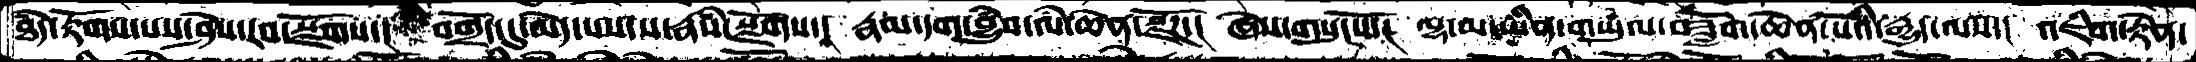ཐཾད་རྟོགས་པས་ཤེས་རབ་སྫོགས་། བགྲོད་དུ་མེད་པས་ས་རྣཾས་སྫོགས་། རྣམ་དག་བྱུཾབ་ལཾ་ཆེན་སྫོཌ་། ཞེས་གསུངསོ་། ལྷ་མ་ཡིན་གཡུལ་བཟློག་ཆེན་པོའི་རྒྱུད་ལས་། འཇིག་རྟེན་
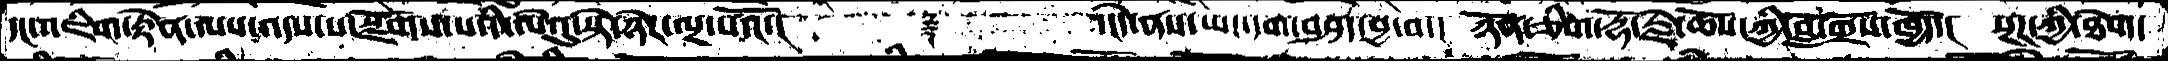དང་འཇིག་རྟེན་ལས་འདས་པ་སྫོགས་པའི་ལེའུ་སྟེ་ཉེར་ལྔ་པའོ་།     ༈   ་།དེ་ནས་ཡང་དག་བཤད་བྱ་བ་། ཉོན་ཅིག་རྡོ་རྗེ་ཆོས་ཀྱི་བློ་གྲོས་ཁྱོད་། སྔཌ་ཀྱི་ཐེག་
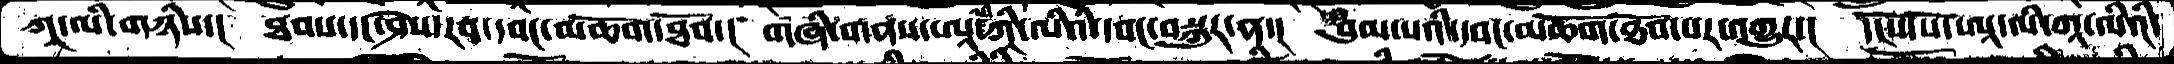ཀཱ་ལི་གཉིས་། ཐབས་དང་ཤེས་རབ་དབང་མཆོག་ཐོབ་། གཞི་གནས་ཨཱ་ལི་ཀཱི་ལིའི་དབང་བསྐུར་ན་། བུམ་པའི་དབང་མཆོག་ཐོབ་པར་འགྱུར་། དངོས་པོ་ཨཱ་ལི་ཀཱ་ལིའི་
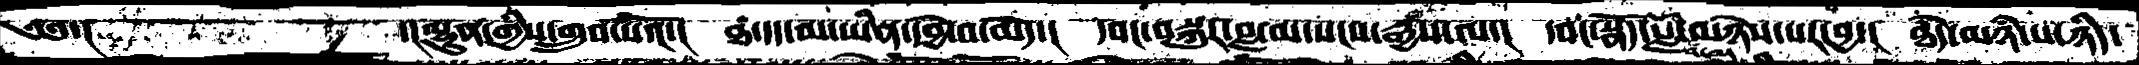༄༅་།          ་།ལྷུན་གྱིས་གྲུབ་པའོ་། ཐ་དད་མ་ཡིན་དབྱེ་བ་མེད་། དབང་བསྐུར་བླ་མ་སངས་རྒྱས་ལ་། དབང་སྣོད་སློབ་མ་མཉེས་པར་བྱ་། ཐཾད་མཉཾ་པ་ཉིད་
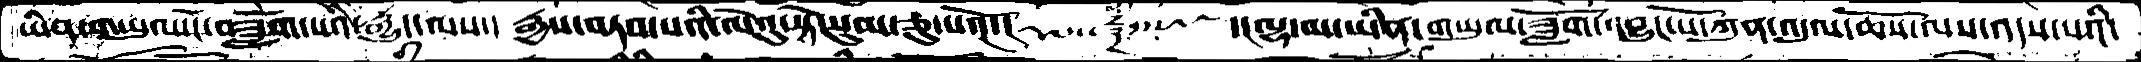ཡིན་གཡུལ་ངོ་བཟློག་པའི་རྒྱུད་ལས་། རྒྱས་བཏབ་པའི་ལེའུ་སྟེ་སུམ་ཅུ་པའོ་།   ༒   ་།ལྷ་མ་ཡིན་གཡུལ་ཟློག་འབྱུང་པོ་ཀུན་འདུལ་ཆོས་ལས་འདས་པའི་
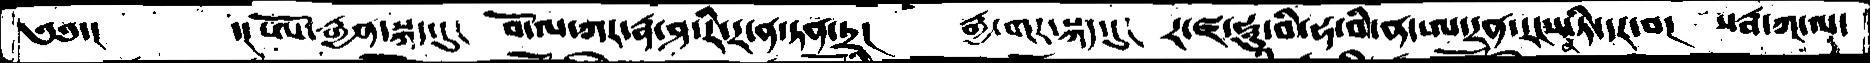༄༅་།      ་།ཨོ་རྒྱན་སྐད་དུ།  བོ་ལ་ཀར་རྣ་ཤ་རི་ར་ན་ཏན་ཏྲ།  རྒྱ་གར་སྐད་དུ།  ར་ཛ་ཧཱུ་བི་ཧ་བི་ན་ཨ་དྲན་རང་ན་ས་ཏི་དར་བ།  སརྦ་ཀ་ལ་
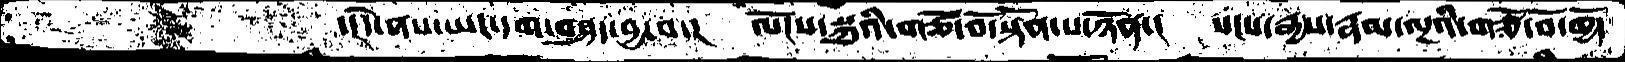་།དེ་ནས་ཡང་དག་བཤད་བྱ་བ་།  ལོངས་སྐུའི་གཙོ་བོ་སྟོན་པ་ཉོན་། སངས་རྒྱས་རྣམ་ལྔའི་གཙོ་བོ་ཁྱོད
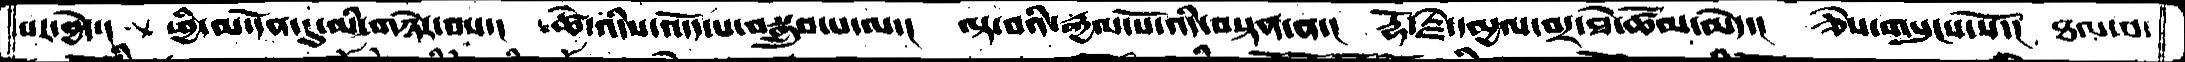པར་བྱེད་།  ཕྱི་མ་དོན་དུ་མི་གཉེར་བས་། ཚེ་འདིས་འདོད་པ་བསྒྲུབ་པ་ལ་། ལྟ་བའི་རྒྱལ་པོ་འདི་བསྟན་ན་། རྡོ་རྗེ་དམྱལ་བར་ཐེ་ཚོམ་མེད་།  ཅེས་གསུངས་སོ་། ཐལ་བ་
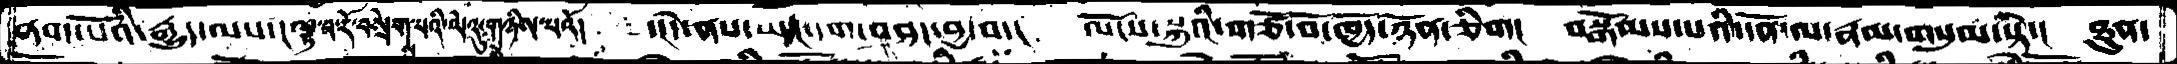ནག་པོའི་རྒྱུད་ལས་། ལྟ་བ་རོ་བསྲེགས་པའི་ལེའུ་སྟེ་གཉིས་པའོ། ་།དེ་ནས་ཡང་དག་བཤད་བྱ་བ་། ལོངས་སྐུའི་གཙོ་བོ་ཁྱོད་ཉོན་ཅིག། བསྒོམས་པའི་དོན་ལ་རྣམ་གསུམ་སྟེ་། ཐུན་
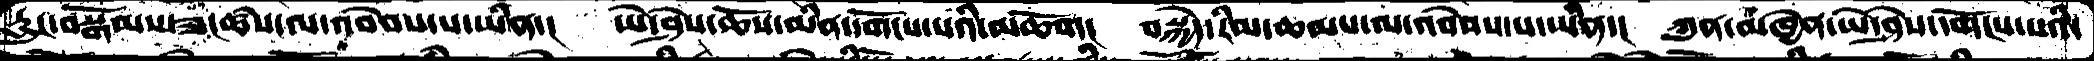རླུང་བསྒོམས་ཟངཚཾས་ལ་འབེབས་པ་ཡིན་། ཡེ་ཤེས་ཆོས་མིན་དགོངས་པའི་མཆོག། བསྐྱེད་རིམ་ཆམས་ལ་འབེབས་པ་ཡིན་། ཀུན་མཁྱེན་ཡེ་ཤེས་དགོངས་པའི་
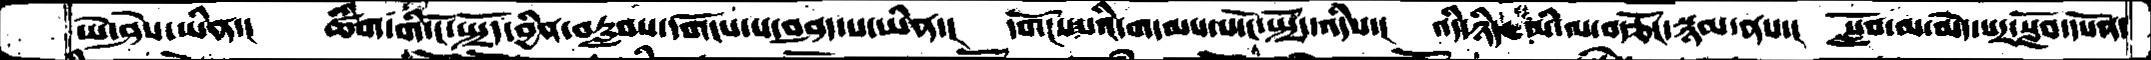ཡེ་ཤེས་ཡིན་།  ཚིག་གི་ངོ་སྤྲོད་བྱིན་བརླབས་དགོངས་པ་བཤད་པ་ཡིན་། དགོངས་པའི་གདམས་པ་ངོ་སྤྲོད་འདིས་། འདི་ཉིད་མི་ལ་བརྩོང་སྙམ་ནས་། སློབ་མ་མེད་པར་སློབ་དཔོན
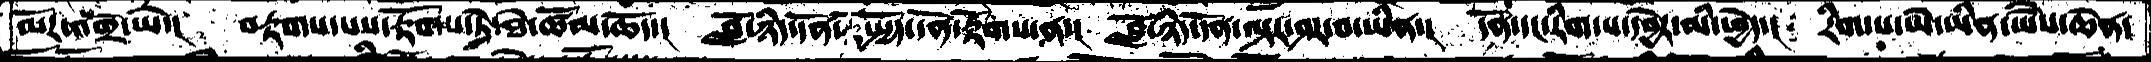མོར་འགྲོ་ཡེ་།  བརྟགས་པས་རྟོགས་ཏེ་ཐེ་ཚོམ་ཆོད་། བློ་ཉིད་དོན་སྤྱོད་དོན་རྟོགས་ན་། བློ་ཉིད་དོན་ལྟར་ཤར་བ་ཡིན་། དོན་དང་རིག་པ་དབྱེར་མི་ཕྱེད་། རིག་པ་མེ་ཡིན་ཡཻས་ཆེན་
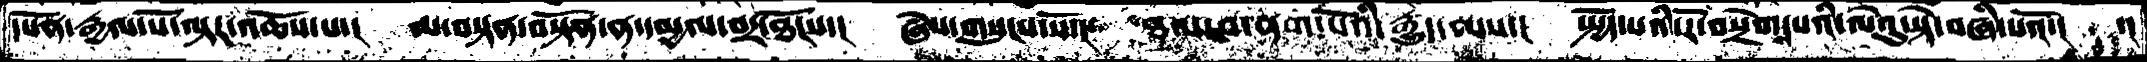དཔོན་རྒྱལ་པོ་ལྟར་འཆོས་པ་།  མ་བསྟན་བསྟོན་ན་དམྱལ་བར་ཐོངས་།  ཞེས་གསུངས་སོ་།  ཐལ་བ་ནག་པོའི་རྒྱུད་ལས་།  སྤྱོད་པའི་རོ་བསྲེགས་པའི་ལེའུ་སྟེ་བཞི་པའོ་།  ་།
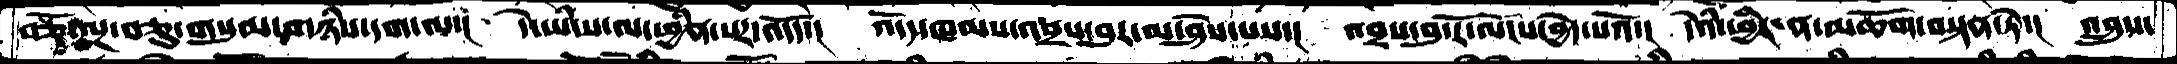བཅོ་ལྔ་བཅུ་གསུམ་གཉིས་དག་ལ་།  དེ་ཡི་ས་ལ་ཕྱིན་པར་འདོད་།  འདོད་ཁམས་འབྲས་བུར་མ་ཤེས་པས་།  འབྲས་བུ་རོ་ལོངས་བྱེད་པའོ་།  དེའི་ཕྱིར་ན་མཆོག་བསྟན་ཏེ་།  འབྲུས་
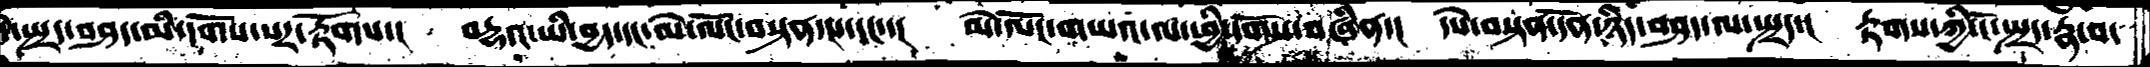དེ་སྤྲད་བཤད་མི་དགོས་པར་རྟོགས་།  བརྡའ་ཡི་བྱད་དང་མེ་ལོང་བསྟན་པ་དང་་།  མེ་ལོང་གཡའ་ལ་ཕྱི་དགོས་བཞིན་།  དཔེ་བསྟན་དོན་ཉིད་བཤད་ལ་སྤྲད་།  རྟགས་ཀྱི་ངོ་སྤྲད་རྣ་བ་
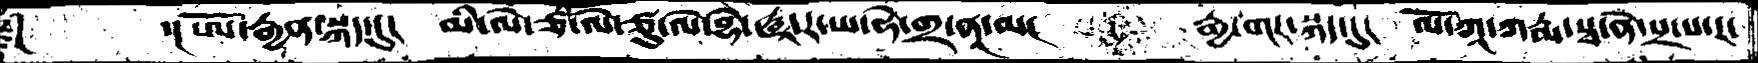༈༽  ་།ཨོ་རྒྱན་སྐད་དུ།  མི་ལེ་ཙ་ལེ་ཙུ་ལེ་བྷེ་ཝཱ་ར་ཡ་ཧེ་གྲ་ནཱ་མ།  རྒྱ་གར་སྐད་དུ།  ལོ་ཀཱ་ཀརྨ་སྭ་ནེ་པྲ་ས་ར་
